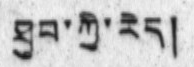ཐུབ་ཀྱི་རེད།
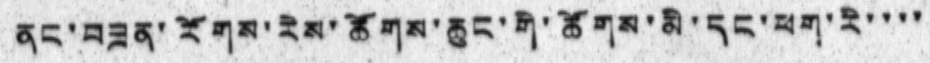ནང་བཟན་རོགས་རེས་ཚོགས་ཆུང་གི་ཚོགས་མི་དང་ཕག་རི་་་་
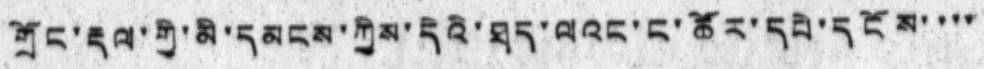གྲོང་རྡལ་གྱི་མི་དམངས་ཀྱིས་དེའི་ཐད་ལའང་ང་ཚོར་དཔེ་དངོས་་་་
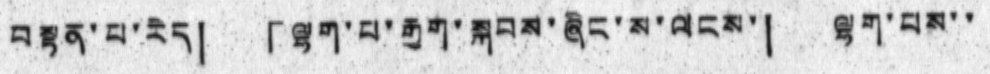བསྟན་པ་རེད།「 ལྷག་པ་རྒྱག་སྐབས་ཞིང་ས་ལངས་། ལྷག་པས་་
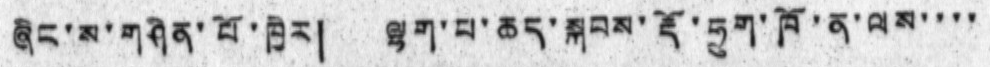ཞིང་ས་གཤིན་པོ་ཁྱེར། ལྷག་པ་ཆད་སྐབས་རྡོ་ཧྲུག་ཁོ་ན་ལས་་་་
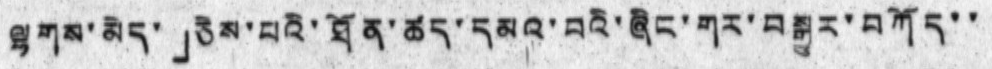ལྷགས་མེད་」ཅེས་པའི་ཐོན་ཚད་དམའ་བའི་ཞིང་གར་བསྒྱུར་བཀོད་་
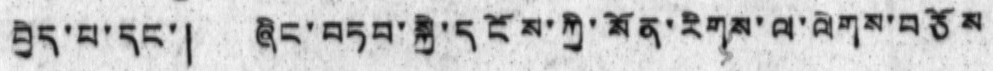བྱེད་པ་དང་། ཞིང་བཏབ་སྐྱེ་དངོས་ཀྱི་སོན་རིགས་ལ་ལེགས་བཅོས
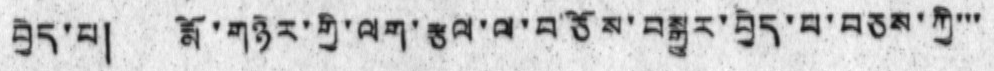བྱེད་པ། རྨོ་གཉེར་གྱི་ལག་རྩལ་ལ་བཅོས་བསྒྱུར་བྱེད་པ་བཅས་ཀྱི་་་
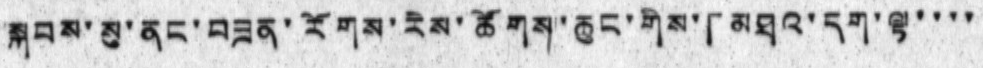སྐབས་སུ་ནང་བཟན་རོགས་རེས་ཚོགས་ཆུང་གིས་「མཐའ་དག་ལྟ་་་་
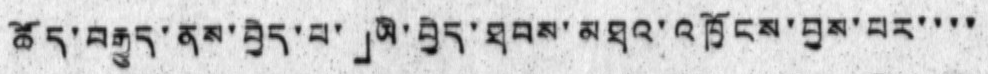ཚོད་བརྒྱུད་ནས་བྱེད་པ་」ཡི་བྱེད་ཐབས་མཐའ་འཁྱོངས་བྱས་པར་་་་
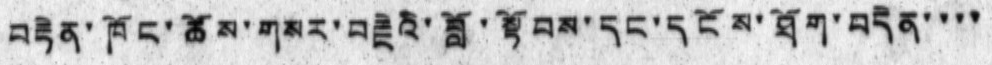བརྟེན་ཁོང་ཚོས་གསར་བརྗེའི་བློ་སྟོབས་དང་དངོས་ཐོག་བདེན་་་་
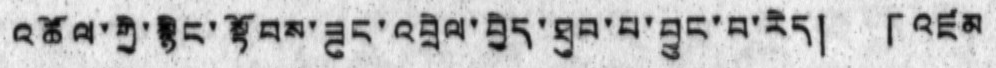འཚོལ་གྱི་སྙིང་སྟོབས་ཟུང་འབྲེལ་བྱེད་ཐུབ་པ་བྱུང་བ་རེད། 「འཛམ
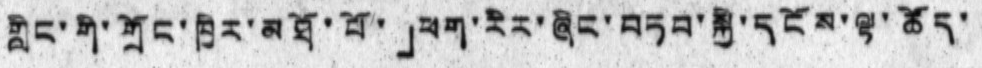གླིང་གི་གྲོང་ཁྱེར་མཐོ་པོ་」ཕག་རིར་ཞིང་བཏབ་སྐྱེ་དངོས་ལྟ་ཚོད་
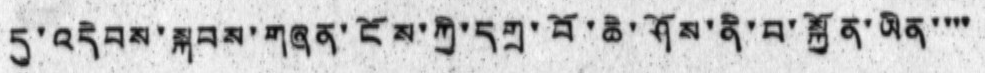དུ་འདེབས་སྐབས་གཞན་ངོས་ཀྱི་དགྲ་བོ་ཆེ་ཤོས་ནི་བ་སྐྱོན་ཡིན་་་་
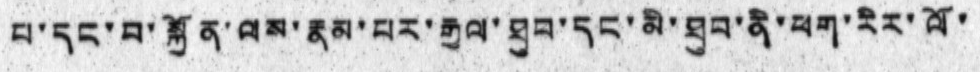པ་དང་བ་སྐྱོན་ལས་རྣམ་པར་རྒྱལ་ཐུབ་དང་མི་ཐུབ་ནི་ཕག་རིར་ལོ་
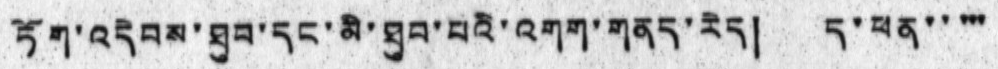ཏོག་འདེབས་ཐུབ་དང་མི་ཐུབ་པའི་འགག་གནད་རེད། ད་ཕན་་་་་
